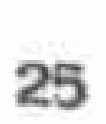25
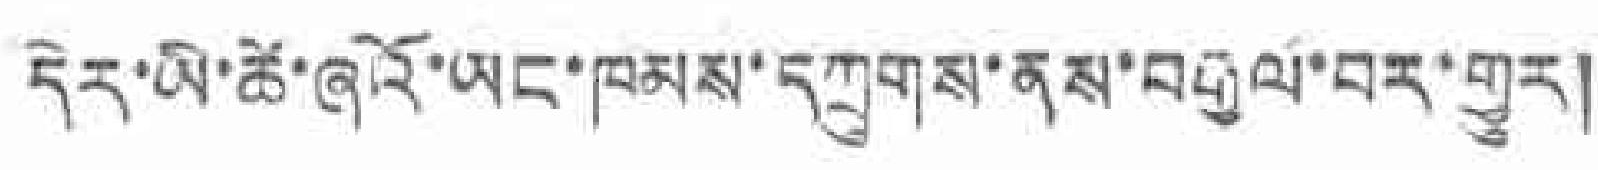དེར་ཡི་ཚེ་ཞའོ་ཡང་ཁམས་དཀྲུགས་ནས་བརྒྱལ་བར་གྱུར།
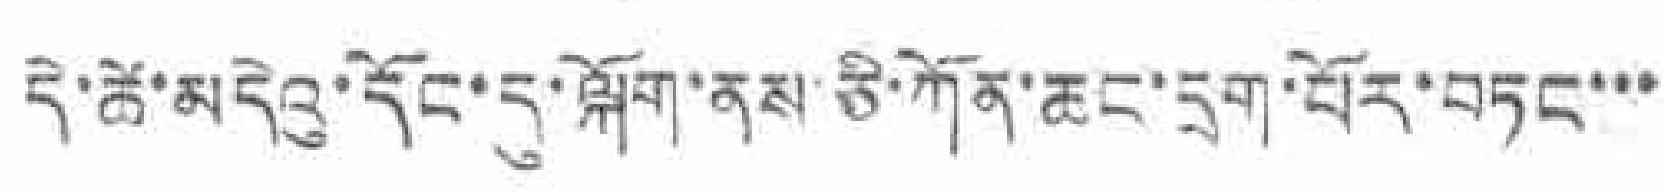དེ་ཚེ་མདེའུ་དོང་དུ་ལྐོག་ནས་ཅི་ཀོན་ཆང་དྲག་པོར་བཏང་་་
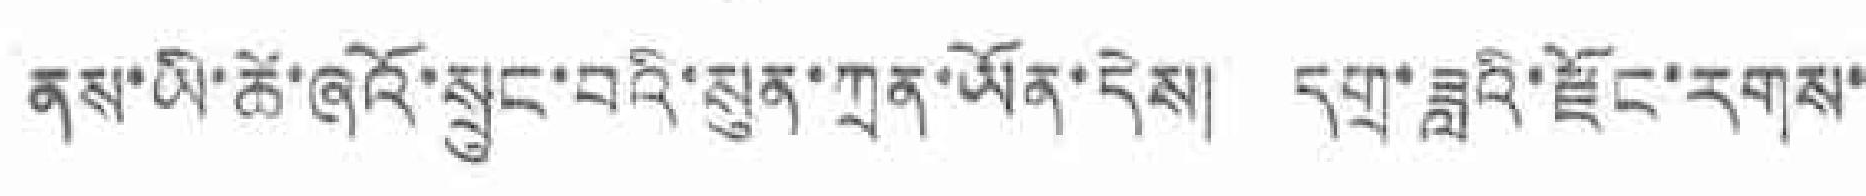ནས་ཡི་ཚེ་ཞའོ་སྲུང་བའི་སུན་ཀྲན་ཡོན་དེས། དགྲ་ཟླའི་རྫོང་རགས་
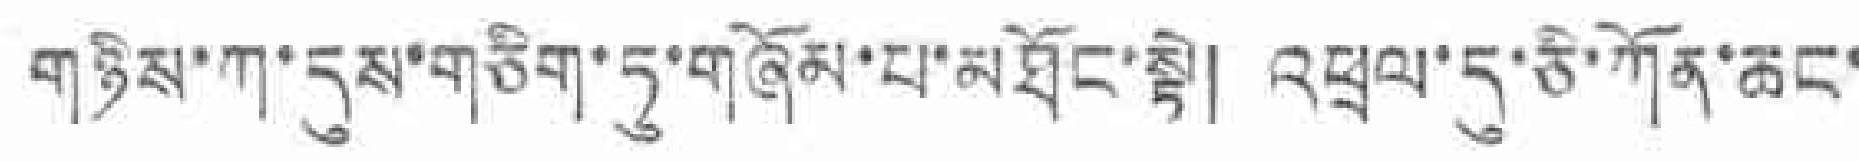གཉིས་ཀ་དུས་གཅིག་ཏུ་གཞོམ་པ་མཐོང་སྟེ། འཕྲལ་དུ་ཅི་ཀོན་ཆང་
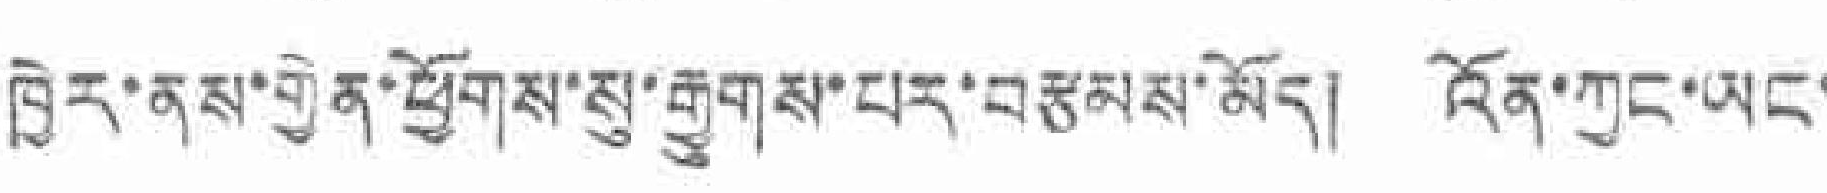ཁྱེར་ནས་གྱེན་ཕྱོགས་སུ་རྒྱུགས་པར་བརྩམས་མོད། འོན་ཀྱང་ཡང་
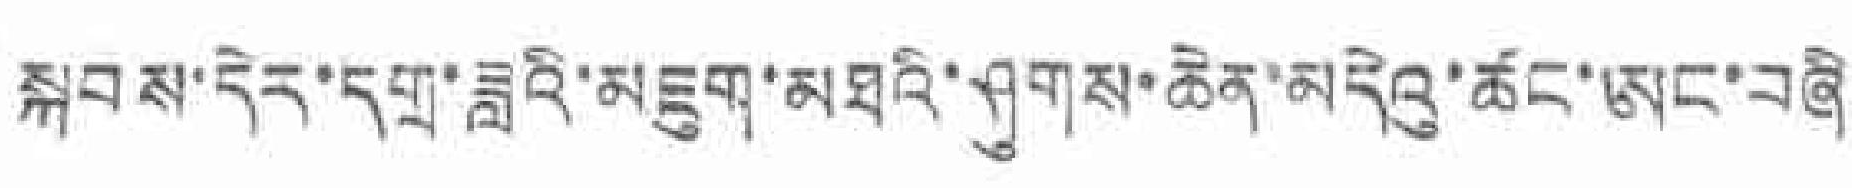སྐབས་དེར་དགྲ་ཟླའི་མཇུག་མཐའི་ཤུགས་ཆེན་མདེའུ་ཚང་ཨང་བཞི
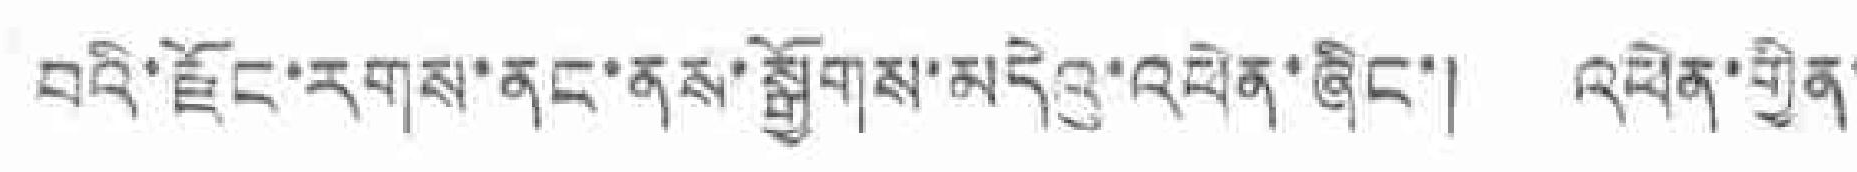བའི་རྫོང་རགས་ནང་ནས་སྒྱོགས་མདེའུ་འཕེན་ཞིང་། འཕེན་གྱིན་
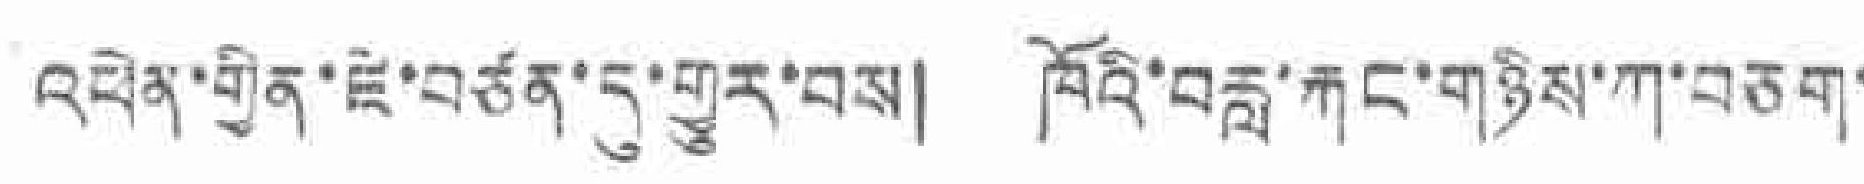འཕེན་གྱིན་ཇེ་བཙན་དུ་གྱུར་བས། ཁོའི་བརླ་རྐང་གཉིས་ཀ་བཅག་
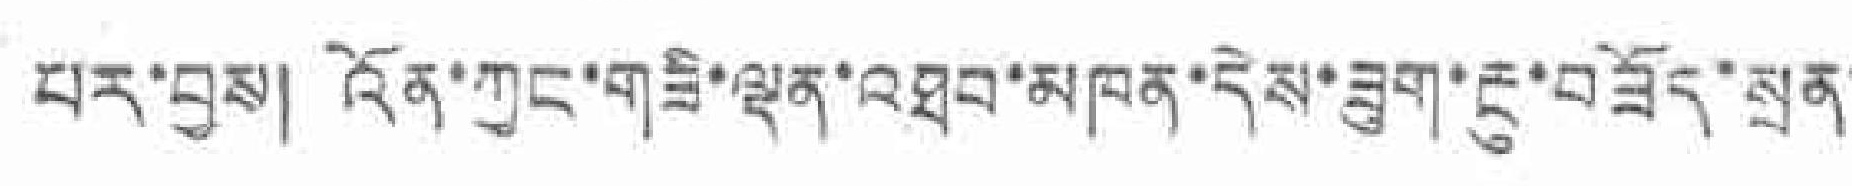པར་བྱས། འོན་ཀྱང་གཟི་ལྡན་འཐབ་མཁན་དེས་ཟུག་རྔུ་བཟོད་སྲན་
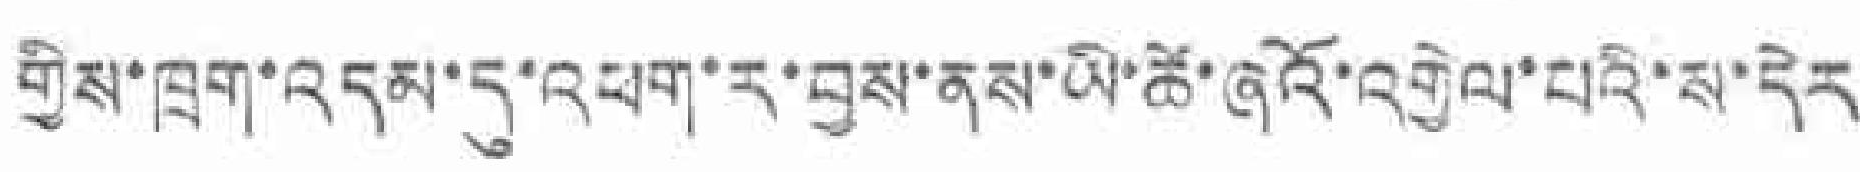གྱིས་ཁྲག་འདམ་དུ་འཕག་ར་བྱས་ནས་ཡི་ཚེ་ཞའོ་འགྱེལ་པའི་ས་དེར
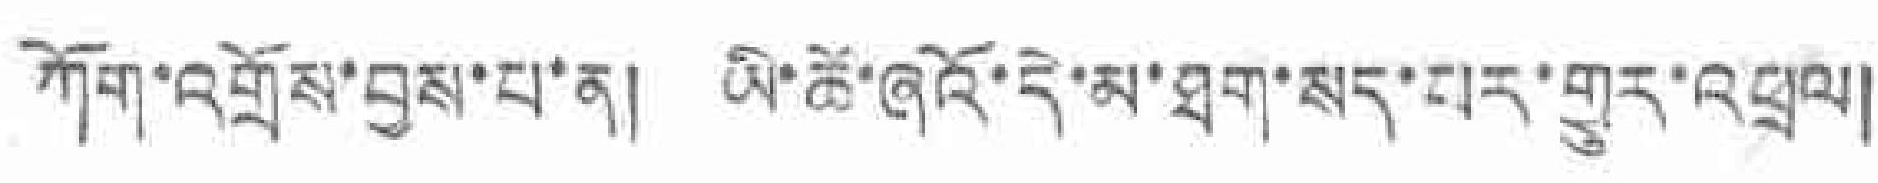ཀོག་འགྲོས་བྱས་པ་ན། ཡི་ཚེ་ཞའོ་དེ་མ་ཐག་སད་པར་གྱུར་འཕྲལ།
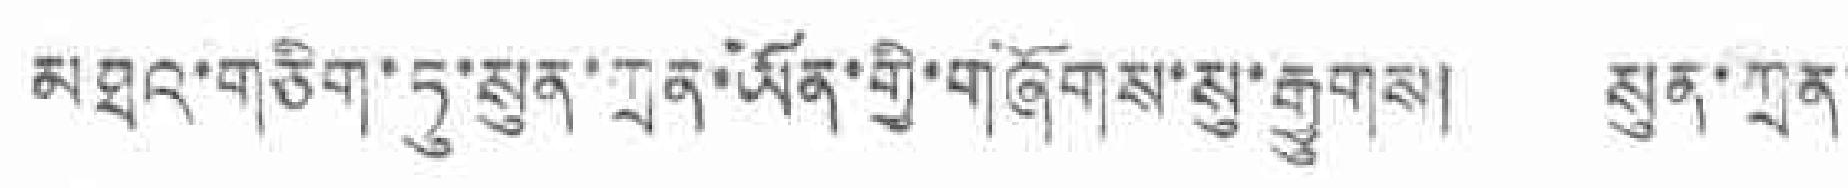མཐའ་གཅིག་ཏུ་སུན་ཀྲན་ཡོན་གྱི་གཞོགས་སུ་རྒྱུགས། སུན་ཀྲན་
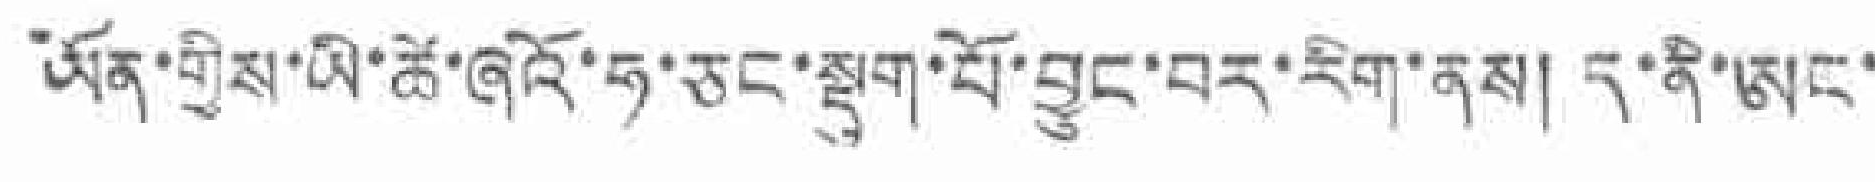ཡོན་གྱིས་ཡི་ཚེ་ཞའོ་ཧ་ཅང་སྡུག་པོ་བྱུང་བར་རིག་ནས། ད་ནི་ཨང་
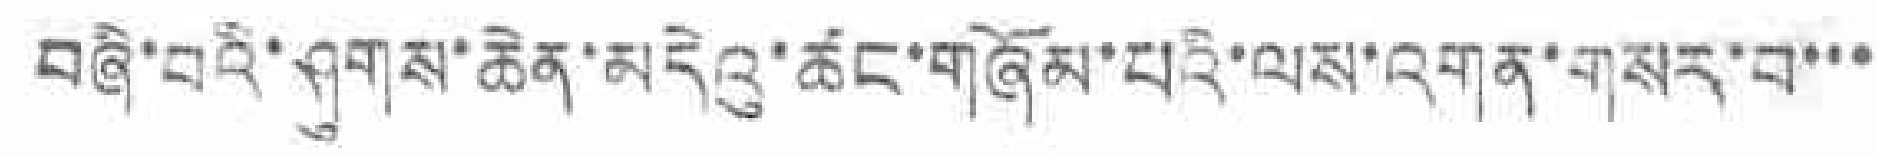བཞི་བའི་ཤུགས་ཆེན་མདེའུ་ཚང་གཞོམ་པའི་ལས་འགན་གསར་བ་་་
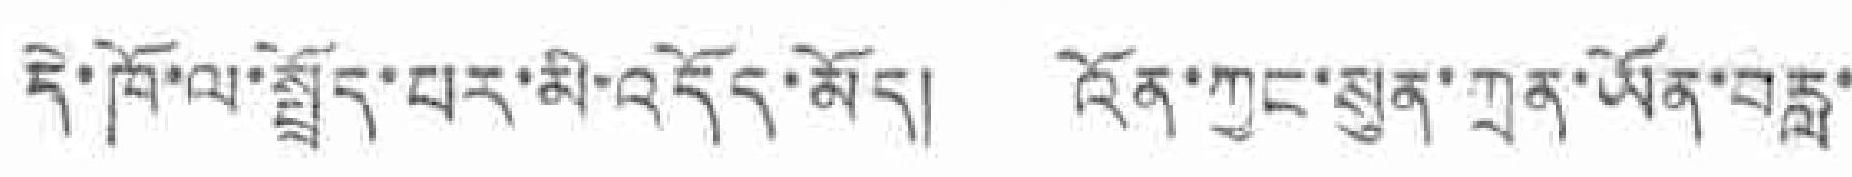དེ་ཁོ་ལ་སྤྲོད་པར་མི་འདོད་མོད། འོན་ཀྱང་སུན་གྲན་ཡོན་བརླ་
